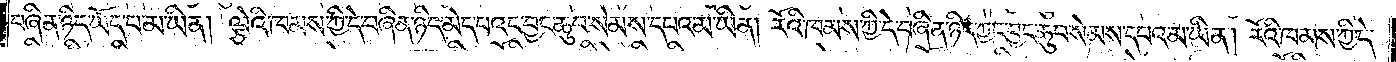བཞིན་ཉིད་ཡོད་པ་མ་ཡིན། ལྕེའི་ཁམས་ཀྱི་དེ་བཞིན་ཉིད་མེད་པའང་བྱང་ཆུབ་སེམས་དཔའ་མ་ཡིན། རོའི་ཁམས་ཀྱི་དེ་བཞིན་ཉིད་ཀྱང་བྱང་ཆུབ་སེམས་དཔའ་མ་ཡིན། རོའི་ཁམས་ཀྱི་དེ་
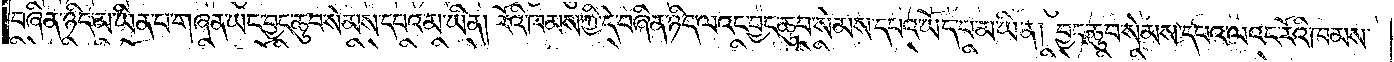བཞིན་ཉིད་མ་ཡིན་པ་གཞན་ཡང་བྱང་ཆུབ་སེམས་དཔའ་མ་ཡིན། རོའི་ཁམས་ཀྱི་དེ་བཞིན་ཉིད་ལའང་བྱང་ཆུབ་སེམས་དཔའ་ཡོད་པ་མ་ཡིན། བྱང་ཆུབ་སེམས་དཔའ་ལའང་རོའི་ཁམས་
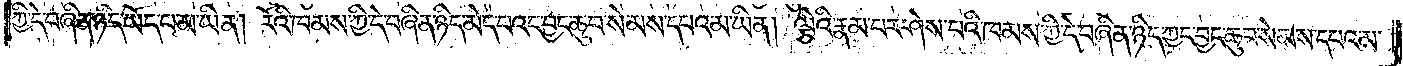ཀྱི་དེ་བཞིན་ཉིད་ཡོད་པ་མ་ཡིན། རོའི་ཁམས་ཀྱི་དེ་བཞིན་ཉིད་མེད་པའང་བྱང་ཆུབ་སེམས་དཔའ་མ་ཡིན། ལྕེའི་རྣམ་པར་ཤེས་པའི་ཁམས་ཀྱི་དེ་བཞིན་ཉིད་ཀྱང་བྱང་ཆུབ་སེམས་དཔའ་མ་
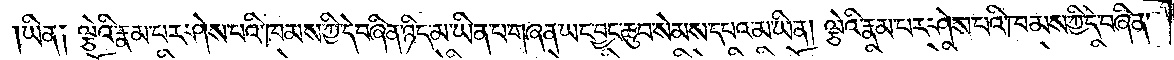ཡིན༑ ལྕེའི་རྣམ་པར་ཤེས་པའི་ཁམས་ཀྱི་དེ་བཞིན་ཉིད་མ་ཡིན་པ་གཞན་ཡང་བྱང་ཆུབ་སེམས་དཔའ་མ་ཡིན། ལྕེའི་རྣམ་པར་ཤེས་པའི་ཁམས་ཀྱི་དེ་བཞིན་
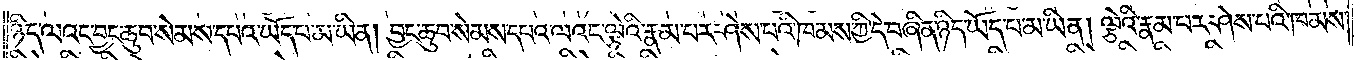ཉིད་ལའང་བྱང་ཆུབ་སེམས་དཔའ་ཡོད་པ་མ་ཡིན། བྱང་ཆུབ་སེམས་དཔའ་ལའང་ལྕེའི་རྣམ་པར་ཤེས་པའི་ཁམས་ཀྱི་དེ་བཞིན་ཉིད་ཡོད་པ་མ་ཡིན། ལྕེའི་རྣམ་པར་ཤེས་པའི་ཁམས་
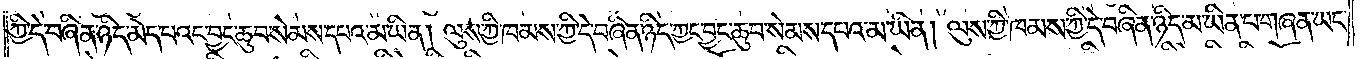ཀྱི་དེ་བཞིན་ཉིད་མེད་པའང་བྱང་ཆུབ་སེམས་དཔའ་མ་ཡིན། ལུས་ཀྱི་ཁམས་ཀྱི་དེ་བཞིན་ཉིད་ཀྱང་བྱང་ཆུབ་སེམས་དཔའ་མ་ཡིན། ལུས་ཀྱི་ཁམས་ཀྱི་དེ་བཞིན་ཉིད་མ་ཡིན་པ་གཞན་ཡང་
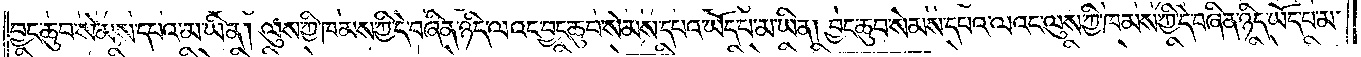བྱང་ཆུབ་སེམས་དཔའ་མ་ཡིན། ལུས་ཀྱི་ཁམས་ཀྱི་དེ་བཞིན་ཉིད་ལའང་བྱང་ཆུབ་སེམས་དཔའ་ཡོད་པ་མ་ཡིན། བྱང་ཆུབ་སེམས་དཔའ་ལའང་ལུས་ཀྱི་ཁམས་ཀྱི་དེ་བཞིན་ཉིད་ཡོད་པ་མ་
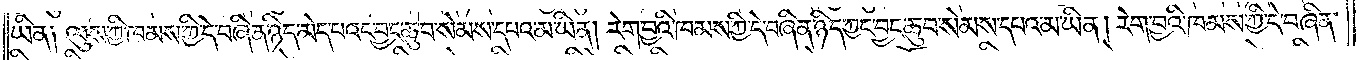ཡིན༑ ལུས་ཀྱི་ཁམས་ཀྱི་དེ་བཞིན་ཉིད་མེད་པའང་བྱང་ཆུབ་སེམས་དཔའ་མ་ཡིན། རེག་བྱའི་ཁམས་ཀྱི་དེ་བཞིན་ཉིད་ཀྱང་བྱང་ཆུབ་སེམས་དཔའ་མ་ཡིན། རེག་བྱའི་ཁམས་ཀྱི་དེ་བཞིན་
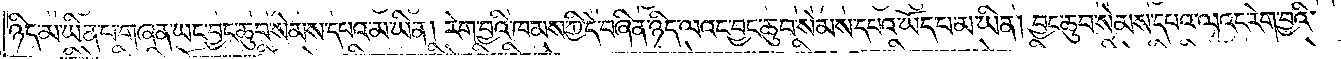ཉིད་མ་ཡིན་པ་གཞན་ཡང་བྱང་ཆུབ་སེམས་དཔའ་མ་ཡིན། རེག་བྱའི་ཁམས་ཀྱི་དེ་བཞིན་ཉིད་ལའང་བྱང་ཆུབ་སེམས་དཔའ་ཡོད་པ་མ་ཡིན། བྱང་ཆུབ་སེམས་དཔའ་ལའང་རེག་བྱའི་
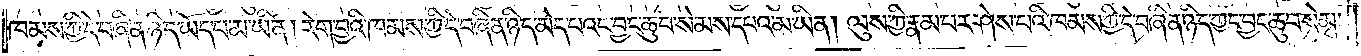ཁམས་ཀྱི་དེ་བཞིན་ཉིད་ཡོད་པ་མ་ཡིན། རེག་བྱའི་ཁམས་ཀྱི་དེ་བཞིན་ཉིད་མེད་པའང་བྱང་ཆུབ་སེམས་དཔའ་མ་ཡིན། ལུས་ཀྱི་རྣམ་པར་ཤེས་པའི་ཁམས་ཀྱི་དེ་བཞིན་ཉིད་ཀྱང་བྱང་ཆུབ་སེམས་
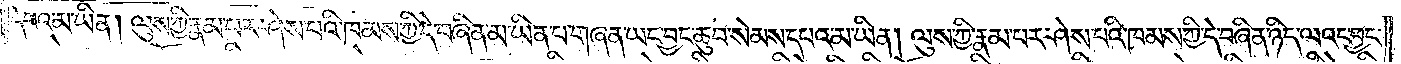དཔའ་མ་ཡིན། ལུས་ཀྱི་རྣམ་པར་ཤེས་པའི་ཁམས་ཀྱི་དེ་བཞིན་མ་ཡིན་པ་གཞན་ཡང་བྱང་ཆུབ་སེམས་དཔའ་མ་ཡིན། ལུས་ཀྱི་རྣམ་པར་ཤེས་པའི་ཁམས་ཀྱི་དེ་བཞིན་ཉིད་ལའང་བྱང་
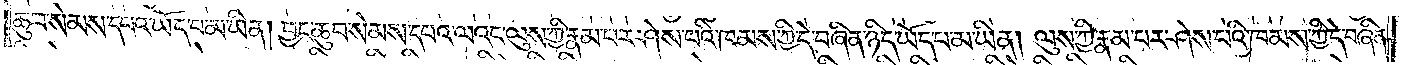ཆུབ་སེམས་དཔའ་ཡོད་བ་མ་ཡིན། བྱང་ཆུབ་སེམས་དཔའ་ལའང་ལུས་ཀྱི་རྣམ་པར་ཤེས་པའི་ཁམས་ཀྱི་དེ་བཞིན་ཉིད་ཡོད་པ་མ་ཡིན། ལུས་ཀྱི་རྣམ་པར་ཤེས་པའི་ཁམས་ཀྱི་དེ་བཞིན་
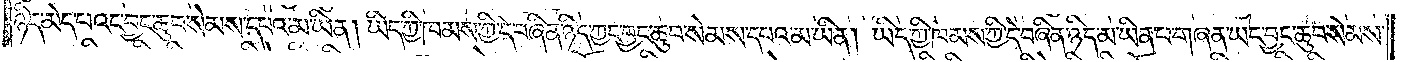ཉིད་མེད་པའང་བྱང་ཆུབ་སེམས་དཔའ་མ་ཡིན། ཡིད་ཀྱི་ཁམས་ཀྱི་དེ་བཞིན་ཉིད་ཀྱང་བྱང་ཆུབ་སེམས་དཔའ་མ་ཡིན། ཡིད་ཀྱི་ཁམས་ཀྱི་དེ་བཞིན་ཉིད་མ་ཡིན་པ་གཞན་ཡང་བྱང་ཆུབ་སེམས་
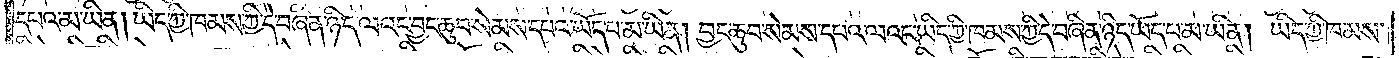དཔའ་མ་ཡིན། ཡིད་ཀྱི་ཁམས་ཀྱི་དེ་བཞིན་ཉིད་ལའང་བྱང་ཆུབ་སེམས་དཔའ་ཡོད་པ་མ་ཡིན། བྱང་ཆུབ་སེམས་དཔའ་ལའང་ཡིད་ཀྱི་ཁམས་ཀྱི་དེ་བཞིན་ཉིད་ཡོད་པ་མ་ཡིན། ཡིད་ཀྱི་ཁམས་
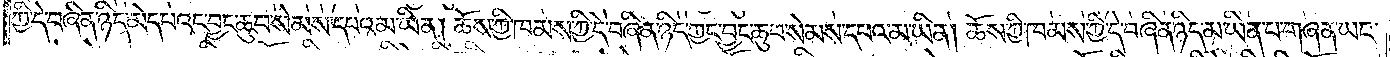ཀྱི་དེ་བཞིན་ཉིད་མེད་པའང་བྱང་ཆུབ་སེམས་དཔའ་མ་ཡིན། ཆོས་ཀྱི་ཁམས་ཀྱི་དེ་བཞིན་ཉིད་ཀྱང་བྱང་ཆུབ་སེམས་དཔའ་མ་ཡིན། ཆོས་ཀྱི་ཁམས་ཀྱི་དེ་བཞིན་ཉིད་མ་ཡིན་པ་གཞན་ཡང་
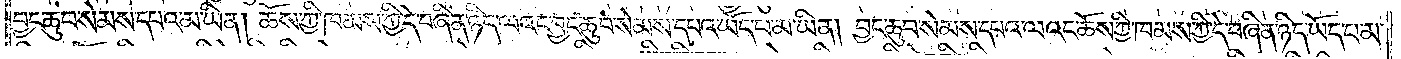བྱང་ཆུབ་སེམས་དཔའ་མ་ཡིན། ཆོས་ཀྱི་ཁམས་ཀྱི་དེ་བཞིན་ཉིད་ལའང་བྱང་ཆུབ་སེམས་དཔའ་ཡོད་པ་མ་ཡིན། བྱང་ཆུབ་སེམས་དཔའ་ལའང་ཆོས་ཀྱི་ཁམས་ཀྱི་དེ་བཞིན་ཉིད་ཡོད་པ་མ་
